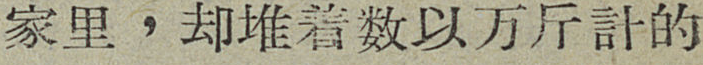家里，却堆着数以万斤計的
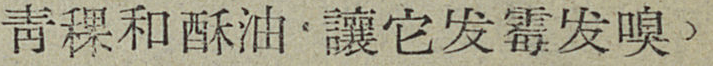靑稞和酥油，讓它发霉发嗅。
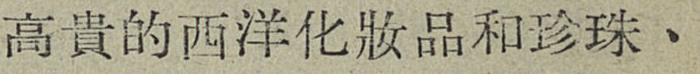高貴的西洋化妆品和珍珠、
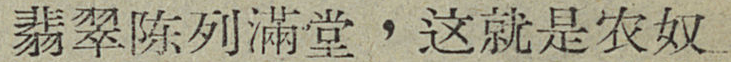翡翠陈列滿堂，这就是农奴
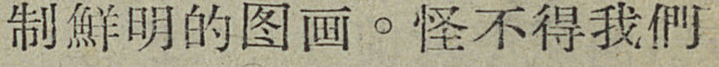制鮮明的图画。怪不得我們
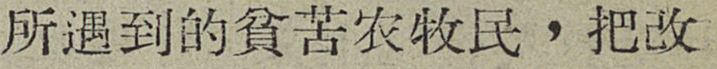所遇到的貧苦农牧民，把改
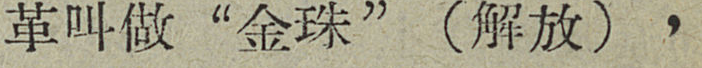革叫做“金珠”（解放），
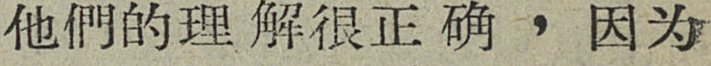他們的理解很正确，因为
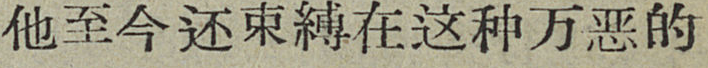他至今还束縛在这种万恶的
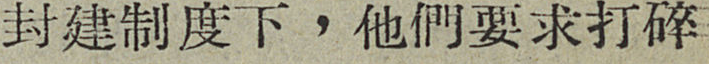封建制度下，他們要求打碎
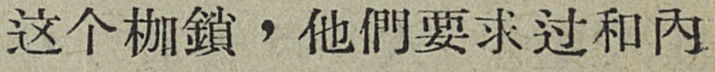这个枷鎖，他們要求过和内
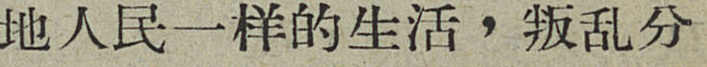地人民一样的生活，叛乱分
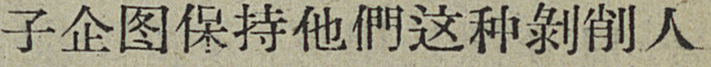自企图保持他們这种剝削人
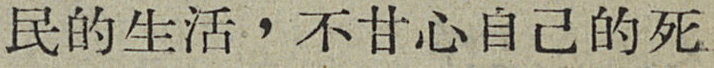民的生活，不甘心自己的死
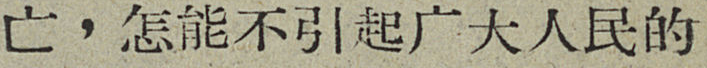亡，怎能不引起广大人民的
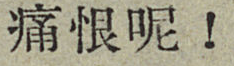痛恨呢！
